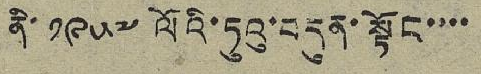ནི་ ༡༩༥༧ ལོའི་ཏུའུ་བདུན་སྟོང་་་་
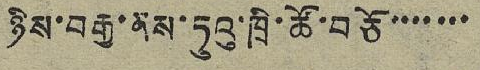ཉིས་བརྒྱ་ནས་ཏུའུ་ཁྲི་ཚོ་བཅོ་་་་་་་
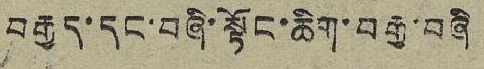བརྒྱད་དང་བཞི་སྟོང་ཆིག་བརྒྱ་བཞི
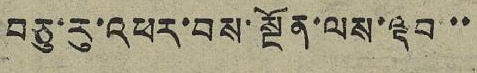བཅུ་རུ་འཕར་བས་སྔོན་ལས་ལྡབ་་་
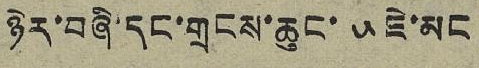ཉེར་བཞི་དང་གྲངས་ཆུང་ ༥ ཇེ་མང་
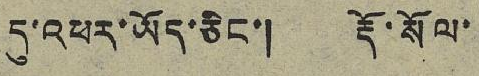དུ་འཕར་ཡོད་ཅིང་། རྡོ་སོལ་
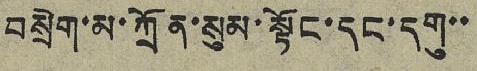བསྲེག་མ་ཀྲོན་སུམ་སྟོང་དང་དགུ་་
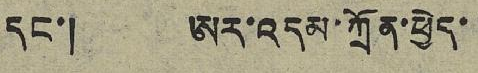དང་། ཨར་འདམ་ཀྲོན་ཕྱེད་
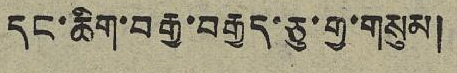དང་ཆིག་བརྒྱ་བརྒྱད་ཅུ་གྱ་གསུམ།
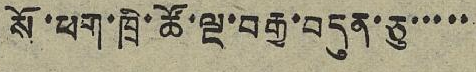སོ་ཕག་ཁྲི་ཚོ་ལྔ་བརྒྱ་བདུན་ཅུ་་་་་
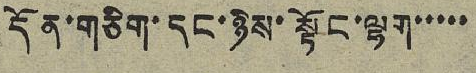དོན་གཅིག་དང་ཉིས་སྟོང་ལྷག་་་་་
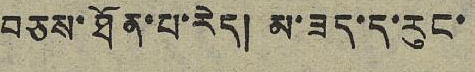བཅས་ཐོན་པ་རེད། མ་ཟད་ད་རུང་
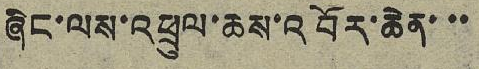ཞིང་ལས་འཕྲུལ་ཆས་འབོར་ཆེན་་་
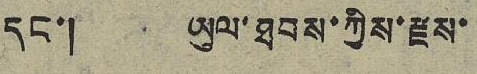དང་། ཡུལ་ཐབས་ཀྱིས་རྫས་
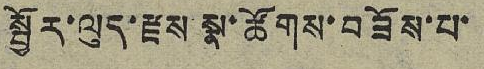སྦྱོར་ལུད་རྫས་སྣ་ཚོགས་བཟོས་པ་
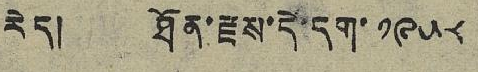རེད། ཐོན་རྫས་དེ་དག་ ༡༩༥༨
